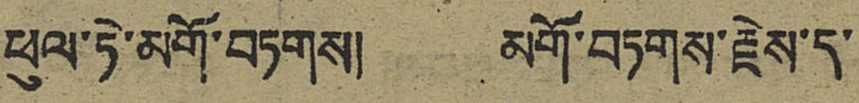ཕུལ་ཏེ་མགོ་བཏགས། མགོ་བཏགས་རྗེས་ད་
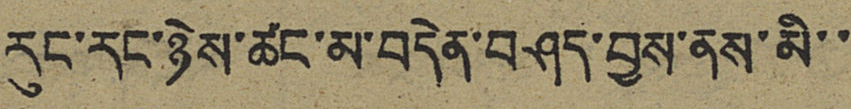རུང་རང་ཉེས་ཚང་མ་མདེན་བཤད་བྱས་ནས་མི་་
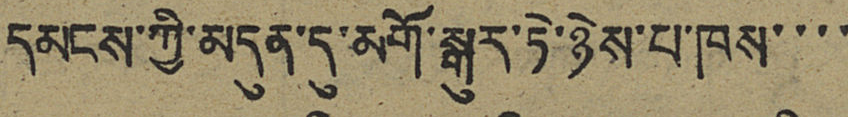དམངས་ཀྱི་མདུན་དུ་མགོ་སྒུར་ཏེ་ཉེས་པ་ཁས་་་་
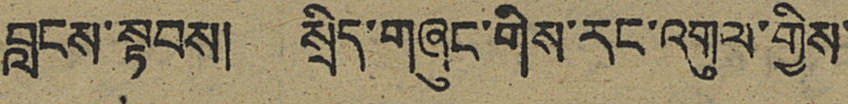བླངས་སྟབས། སྲིད་གཞུང་གིས་རང་འགུལ་གྱིས་
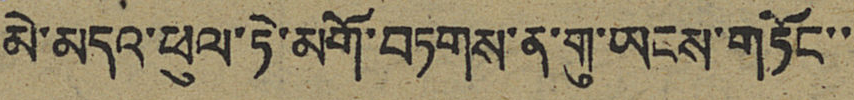མེ་མདའ་ཕུལ་ཏེ་མགོ་བཏགས་ན་གུ་ཡངས་གཏོང་་
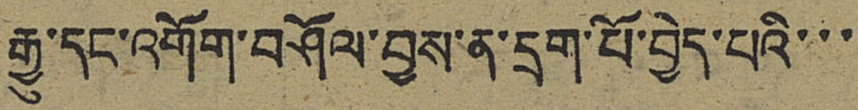རྒྱུ་དང་འགོག་བཤོལ་བྱས་ན་དྲག་པོ་བྱེད་པའི་་་
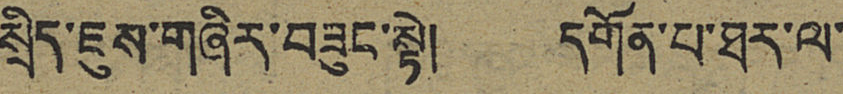སྲིད་ཇུས་གཞིར་བཟུང་སྟེ། དགོན་པ་ཐར་ལ་
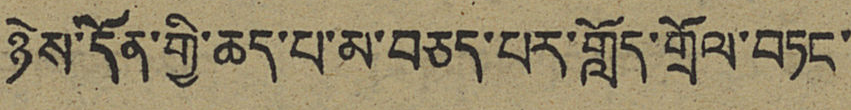ཉེས་དོན་གྱི་ཆད་པ་མ་བཅད་པར་གློད་གྲོལ་བཏང་
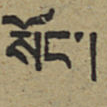སོང་།
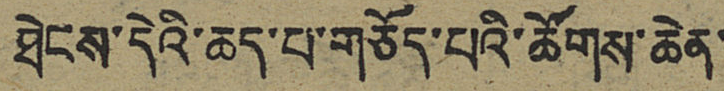ཐེངས་དེའི་ཆད་པ་གཅོད་པའི་ཚོགས་ཆེན་
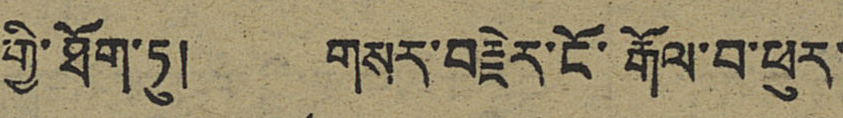གྱི་ཐོག་ཏུ། གསར་བརྗེར་ངོ་རྒོལ་བ་ཕུར་
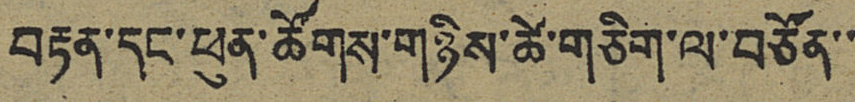བརྟན་དང་ཕུན་ཚོགས་གཉིས་ཚེ་གཅིག་ལ་བཙོན་་
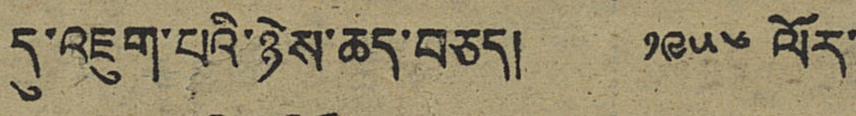དུ་འཇུག་པའི་ཉེས་ཆད་བཅད། ༡༩༥༦ ལོར་
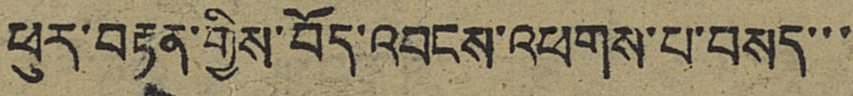ཕུར་བརྟན་གྱིས་བོད་འབངས་འཕགས་པ་བསད་་་
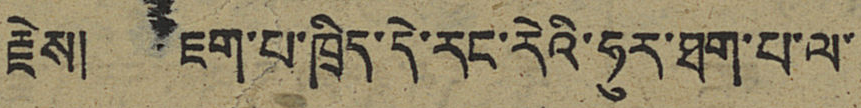རྗེས། ཇག་པ་ཁྲིད་དེ་རང་རེའི་ཧུར་ཐག་པ་ལ་
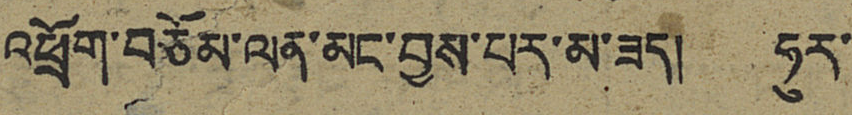འཕྲོག་བཅོམ་ལན་མང་བྱས་པར་མ་ཟད། ཧུར་
